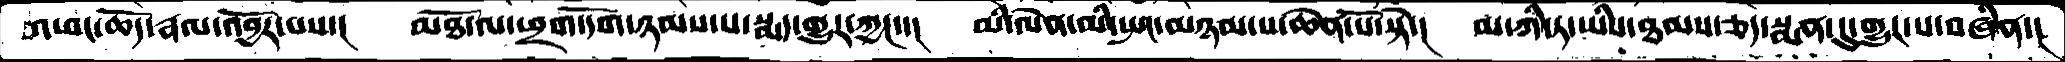འཕང་ཆོད་རྣལ་འབྱོར་པས་།  མཐོ་ལ་ཕྲག་དོག་ཉམས་པ་སྨད་གྱུར་ཀྱང་་།  མི་ལེན་མི་སྤང་མཉམ་པ་ཆེན་པོ་སྟེ་།  མ་ཀི་ཏ་ཡིས་ཐམས་ཅད་སྨན་དུ་གྱུར་པ་བཞིན་།
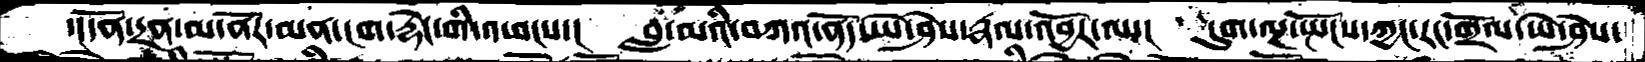་།དོན་དྲན་མ་ནོར་མན་ངག་རྟེང་གི་འཕངས་།  བླ་མའི་་བཀའ་ནོད་ཡེ་ཤེས་རྣལ་འབྱོར་ལ་།  དུག་ལྔ་སྤོངས་ཀྱང་རང་གྲོལ་ཡེ་ཤེས་
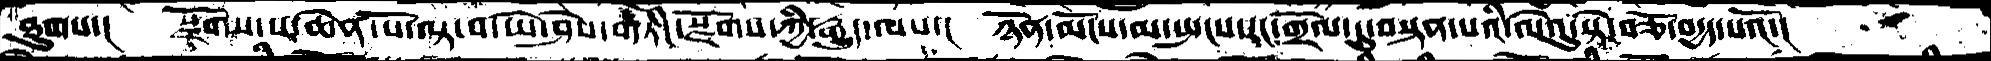ཐུགས་།  སྫོགས་པ་ཆེན་པོ་ལྟ་བ་ཡེ་ཤེས་གཏིང་སྫོགས་ཀྱི་རྒྱུད་ལས་།  ཉོན་མོངས་མ་སྤངས་རང་གྲོལ་དུ་བསྟན་པའི་ལེའུ་སྟེ་བཅོ་བདྱད་པའོ་།
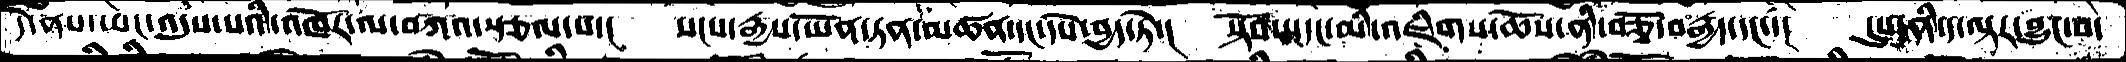དེ་ནས་ཡང་འདུས་པའི་འཁོར་ལ་བཀའ་སྩལ་པ་།   སངས་རྒྱས་ཡོན་ཏན་མཚན་དང་དཔེ་བྱད་ཏེ་།  སྟོབས་དང་མི་འཇིག་ཆོས་ནི་བཅྭོ་བརྒྱད་དང་་།    དུས་ནི་ད་ལྟར་བྱུང་བ་
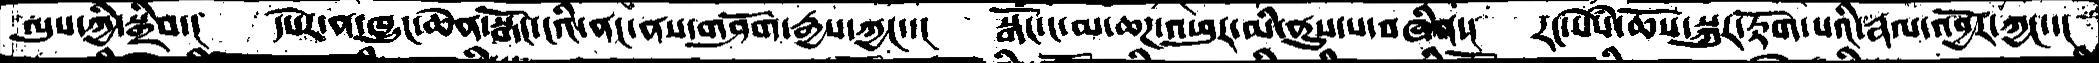ལུས་ཀྱིི་སྒྲིབ་།    དཔེར་ན་ཁྱུང་ཆེན་སྒོ་ངའི་ནང་ནས་གཤོག་རྒྱས་ཀྱང་་།   སྒོ་ང་མ་ཆཌ་འཕུར་མི་ནུས་པ་བཞིན་།   རང་སེསཾ་ཆོས་སྐུར་རྟོག་པའི་རྣལ་འབྱོར་ཀྱང་་།
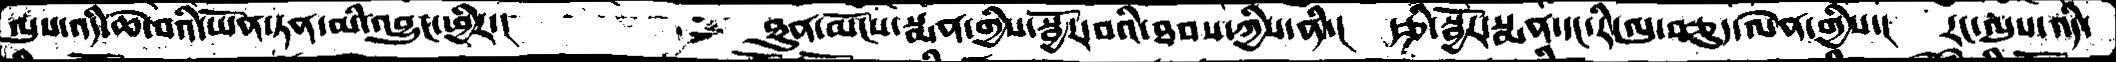ལུས་འདི་ཆེ་བའི་ཡོན་ཏན་མི་འབྱུང་ཕྱིར་།           ཐུན་མོངས་སྨན་གྱིས་སྦྱོར་བའི་ཐབས་ཀྱིས་ནི་།   རྩི་སྦྱོར་སྨན་དང་རི་ལུ་བཅུད་ལེན་གྱིས་།   རང་ལུས་འདི་
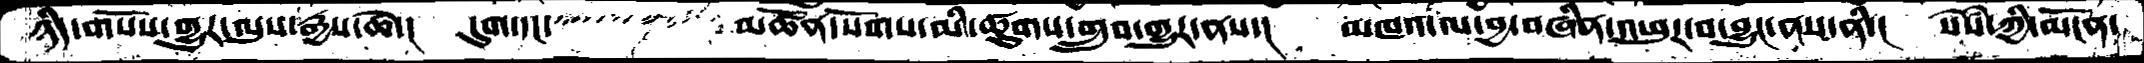ཉིད་གསོས་གྱུར་ལུས་རྒྱས་ཆེ་།  དུག་དང་       མཚོན་སོགས་མི་ཚུགས་གྲུབ་གྱུར་ནས་།   མཁའ་ལ་བྱ་བཞིན་འཕུར་བ་བྱུང་ནས་ནི་།   སེསཾ་ཀྱི་མངོན་
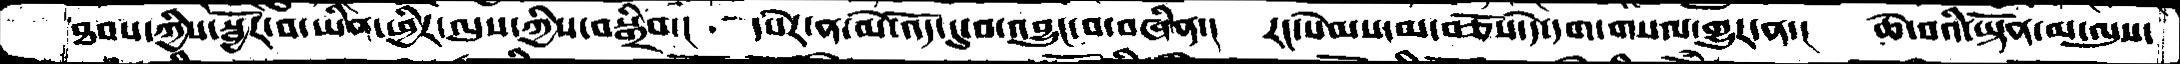ཐབས་ཀྱིས་སྦྱོར་བ་ཡིན་ཕྱིར་ལུས་ཀྱིས་བསྒྲིབ་།  དཔེར་ན་མེ་འོད་དུ་བ་འབྱུང་བ་བཞིན་།  རང་སེམས་མ་བཅོས་དེ་དག་གསལ་གྱུར་ན་།  ཆེ་བའི་ཡྟོན་མ་ལུས་
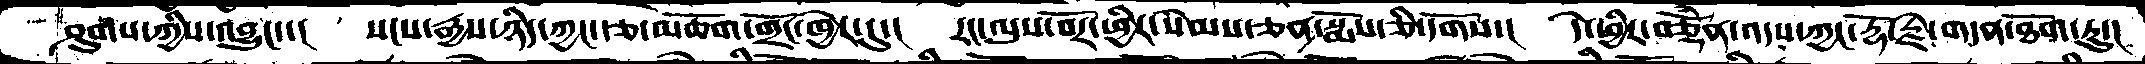ཤུགས་ཀྱིས་འབྱུང་་།  སངས་རྒྱས་ཉིད་ཀྱང་རྩ་མཆོག་གྲོང་ཁྱེར་དུ་།  རང་ལུས་བོར་ཕྱིར་སེམས་ཅན་སྨོས་ཅི་དགོས་།  དེ་ཕྱིར་བཅྡོཾན་འདས་ཀྱང་རྡོ་རྗེ་གདན་ཐོག་ཏུ་།
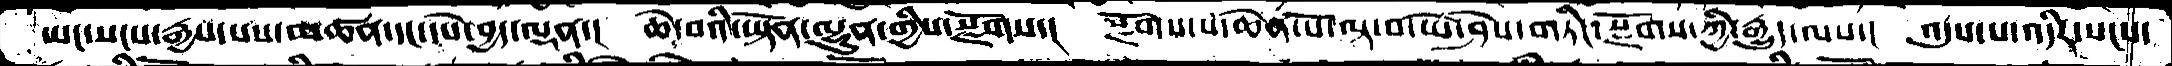ཡང་སངས་རྒྱས་པས་མཚན་དང་དཔེ་བྱད་ལྡན་།  ཆེ་བའི་ཡྟོན་ལྷུན་གྱིས་སྫོགས་།  སྫོགས་པ་ཆེན་པོ་ལྟ་བ་ཡེ་ཤེས་གཏིང་སྫོགས་ཀྱི་རྒྱུད་ལས་།  འདུས་པ་འདིར་སངས་
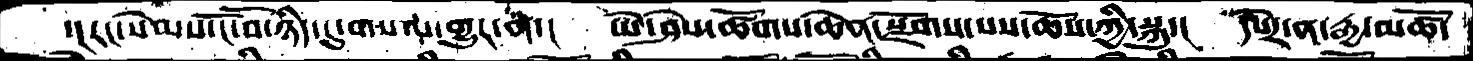་།རང་སེམས་ངོ་བོ་ཉིད་དུ་གསལ་གྱུར་ན་།  ཡེ་ཤེས་ཚོགས་ཆེན་སྫོགས་པས་ཆོས་ཀྱི་སྐུ་།  དཔེར་ན་རྒྱ་མཚོ་
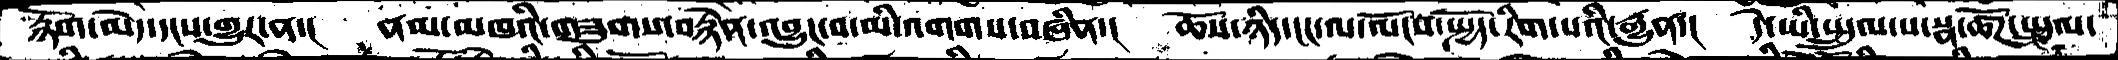རྙོག་མེད་དངས་གྱུར་ན་།  ནམ་མཁའི་གཟུགས་བརྙེན་འབྱུང་བ་མི་འགགས་བཞིན་།  ཆོས་ཉིད་ངང་ལ་ལོངས་སྤྱོད་རིག་པའི་རྒྱུན་།  དེ་ཡི་སྤྲུལ་པ་སྣ་ཚོཌ་སྤྲུལ་
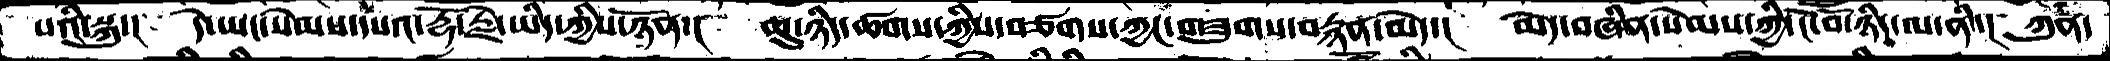པའི་སྐུ་།  དེ་ཡང་སེམས་དཔའ་རྡོ་རྗེ་ཡིད་ཀྱིས་ཉོན་།  ཆུ་ཉིད་ཚགས་ཀྱིས་བཙགས་ཀྱང་གཟུགས་བརྙན་མེད་།  མེད་བཞིན་སེམས་ཀྱི་ངོ་བོ་ཉིད་ལ་ནི་།  ཀུན་
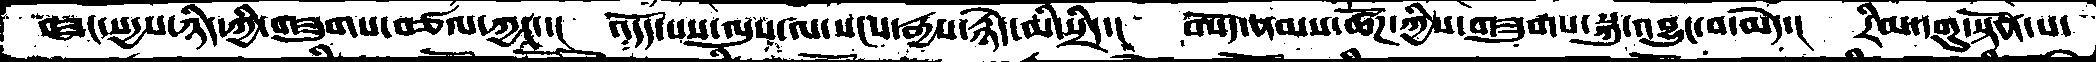བཟང་སདྱས་ཉིད་ཀྱི་གཟུགས་བཙལ་ཀྱང་་།  འདོད་པས་ལུས་ལ་སངས་རྒྱས་རྙེད་མི་སྲིད་།  བསོད་ནམས་ཚོཌ་ཀྱིས་གཟུགས་སྐུ་འབྱུང་བ་མེད་།  རིམ་དགུ་སྟོན་པ་
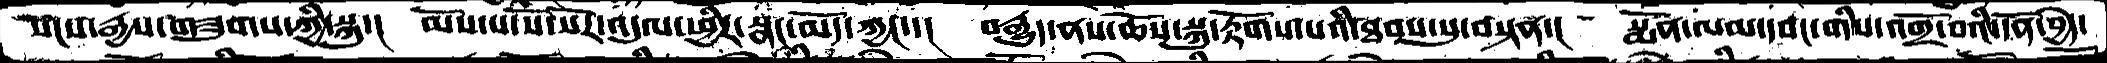སངས་རྒྱས་གཟུགས་ཀྱི་སྐུ་།  མོས་པ་སོ་སོར་འདུལ་ཕྱིར་སྣང་མོད་ཀྱང་་།  བརྒྱུད་ནས་ཆོས་སྐུ་རྟོགས་པའི་ཐབས་སུ་བསྟན་།  སྨོན་ལམ་དབང་གིས་འགྲོ་བའི་དོན་བྱེད་
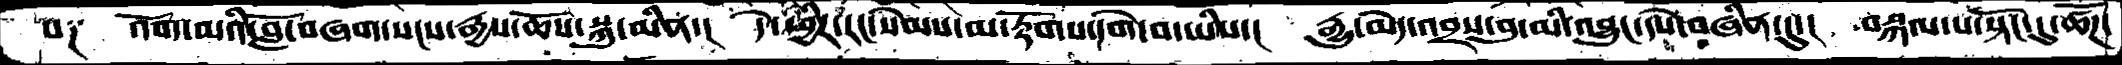པ༑  འོག་མའི་བློ་བཞག་སངས་རྒྱས་ཆོས་སྐུ་མིན་།  དེ་ཕྱིར་རང་སེམས་མ་རྟོགས་དགེ་བ་ཡིས་།   རྒྱུ་མེད་འབྲས་བུ་མི་འབྱུང་དཔེ་བཞིན་དུ་།  བསྐལ་པ་སྟོང་དུ་ཚོཌ་
